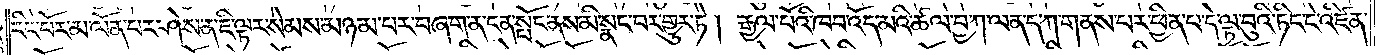རིང་པོར་མ་ལོན་པར་ཤེས་ནས་ཇི་ལྟར་སེམས་མཉམ་པར་བཞག་ན་ངན་སྤོང་ནས་མི་སྣང་བར་གྱུར་ཏེ། རྒྱལ་པོའི་ཁབ་འོད་མའི་ཚལ་བྱ་ཀ་ལན་ད་ཀ་གནས་པར་ཕྱིན་པ་དེ་ལྟ་བུའི་ཏིང་ངེ་འཛིན་
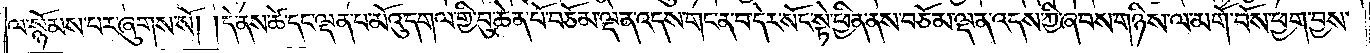ལ་སྙོམས་པར་ཞུགས་སོ། །དེ་ནས་ཚེ་དང་ལྡན་པ་མོའུ་དགལ་གྱི་བུ་ཆེན་པོ་བཅོམ་ལྡན་འདས་གང་ན་བ་དེར་སོང་སྟེ་ཕྱིན་ནས་བཅོམ་ལྡན་འདས་ཀྱི་ཞབས་གཉིས་ལ་མགོ་བོས་ཕྱག་བྱས་
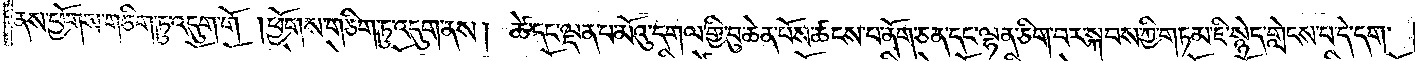ནས་ཕྱོགས་གཅིག་ཏུ་འདུག་གོ །ཕྱོགས་གཅིག་ཏུ་འདུག་ནས། ཚེ་དང་ལྡན་པ་མོའུ་དགལ་གྱི་བུ་ཆེན་པོས་ཚངས་པ་ནོག་ཅན་དང་ལྷན་ཅིག་བར་སྐབས་ཀྱི་གཏམ་ཇི་སྙེད་གླེངས་པ་དེ་དག་
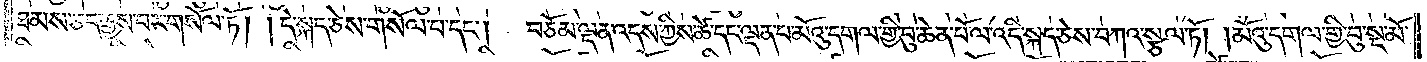ཐམས་ཅད་རྒྱས་བར་གསོལ་ཏོ། །དེ་སྐད་ཅེས་གསོལ་པ་དང༌།  བཅོམ་ལྡན་འདས་ཀྱིས་ཚེ་དང་ལྡན་པ་མོའུ་དགལ་གྱི་བུ་ཆེན་པོ་ལ་འདི་སྐད་ཅེས་བཀའ་སྩལ་ཏོ། །མོའུ་དགལ་གྱི་བུ་སྔ་མོ་
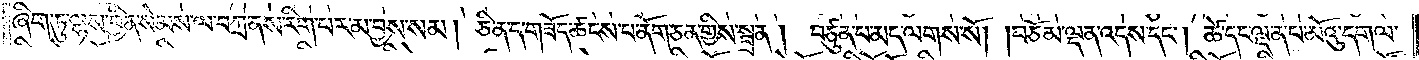ཞིག་ཏུ་ལྷས་བྱིན་སེམས་ལ་བཀྲ་ནས་རིག་པར་མ་བྱས་སམ། ཅི་ན་ད་གཟོད་ཚངས་པ་ནོག་ཅན་གྱིས་སྦྲན། བཙུན་པ་མད་ལགས་སོ། །བཅོམ་ལྡན་འདས་དང༌། ཚེ་དང་ལྡན་པ་མོའུ་དགལ་
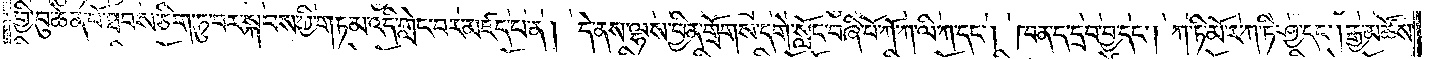གྱི་བུ་ཆེན་པོ་ཐབས་ཅིག་ཏུ་བར་སྐབས་ཀྱི་གཏམ་འདི་གླེང་བར་མཛད་པ་ན། དེ་ནས་ལྷས་བྱིན་གྲོགས་དགེ་སློང་བཞི་པོ་ཀོ་ཀ་ལི་ཀ་དང༌། ཁན་ད་དྲབ་བྱ་དང༌། ཀ་ཏི་མོ་ར་ཀ་ཏི་ཤྱ་དང༌། རྒྱ་མཚོས་
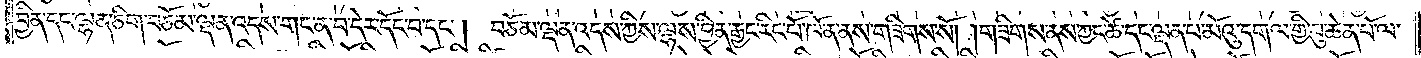བྱིན་དང་ལྷན་ཅིག་བཅོམ་ལྡན་འདས་གང་ན་བ་དེར་དོང་བ་དང༌། བཅོམ་ལྡན་འདས་ཀྱིས་ལྷས་བྱིན་རྒྱང་རིང་པོ་ཁོ་ན་ནས་གཟིགས་སོ། །གཟིགས་ནས་ཀྱང་ཚེ་དང་ལྡན་པ་མོའུ་དགལ་གྱི་བུ་ཆེན་པོ་ལ་
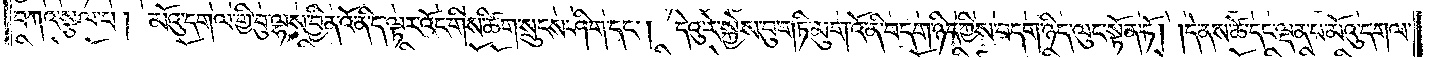བཀའ་སྩལ་པ། མོའུ་དགལ་གྱི་བུ་ལྷས་བྱིན་འོ་ནི་ད་ལྟར་འོང་གིས་ཚིག་སྲུངས་ཤིག་དང༌། དེའུ་རེ་སྐྱེས་བུ་གཏི་མུག་འོ་ནི་བདག་ཉིད་ཀྱིས་བདག་ཉིད་ལུང་སྟོན་ཏོ། །དེ་ནས་ཚེ་དང་ལྡན་པ་མོའུ་དགལ་
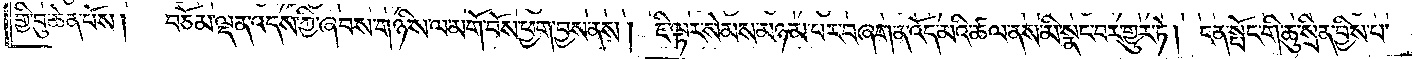གྱི་བུ་ཆེན་པོས།  བཅོམ་ལྡན་འདས་ཀྱི་ཞབས་གཉིས་ལ་མགོ་བོས་ཕྱག་བྱས་ནས། ཇི་ལྟར་སེམས་མཉམ་པར་བཞག་ན་འོད་མའི་ཚལ་ནས་མི་སྣང་བར་གྱུར་ཏེ། ངན་སྤོང་གི་ཆུ་སྲིན་བྱིས་པ་
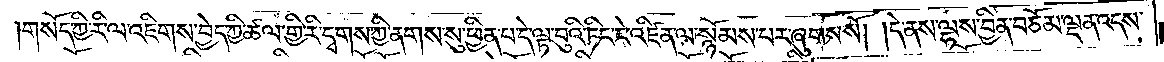གསོད་ཀྱི་རི་ལ་འཇིགས་བྱེད་ཀྱི་ཚལ་གྱི་རི་དྭགས་ཀྱི་ནགས་སུ་ཕྱིན་པ་དེ་ལྟ་བུའི་ཏིང་ངེ་འཛིན་ལ་སྙོམས་པར་ཞུགས་སོ། །དེ་ནས་ལྷས་བྱིན་བཅོམ་ལྡན་འདས་
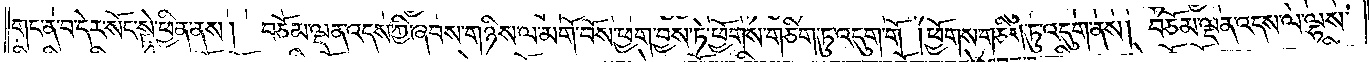གང་ན་བ་དེར་སོང་སྟེ་ཕྱིན་ནས། བཅོམ་ལྡན་འདས་ཀྱི་ཞབས་གཉིས་ལ་མགོ་བོས་ཕྱག་བྱས་ཏེ་ཕྱོགས་གཅིག་ཏུ་འདུག་གོ །ཕྱོགས་གཅིག་ཏུ་འདུག་ནས། བཅོམ་ལྡན་འདས་ལ་ལྷས་
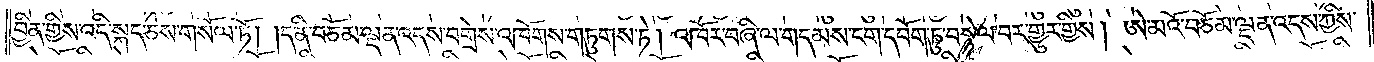བྱིན་གྱིས་འདི་སྐད་ཅེས་གསོལ་ཏོ། །ད་ནི་བཅོམ་ལྡན་འདས་བགྲེས་འཁོགས་གཏུགས་ཏེ། འཁོར་བཞི་ལ་གདམས་ངག་དབོག་ཏུ་བསྙེལ་བར་གྱུར་གྱིས། ཨེ་མའོ་བཅོམ་ལྡན་འདས་ཀྱིས་
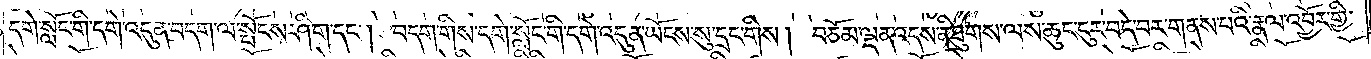དགེ་སློང་གི་དགེ་འདུན་བདག་ལ་སྤོངས་ཤིག་དང༌། བདག་གིས་དགེ་སློང་གི་དགེ་འདུན་ཡོངས་སུ་དྲང་གིས། བཅོམ་ལྡན་འདས་ནི་ཐུགས་ལས་ཆུང་ངུར་བདེ་བར་གནས་པའི་རྣལ་འབྱོར་གྱི་
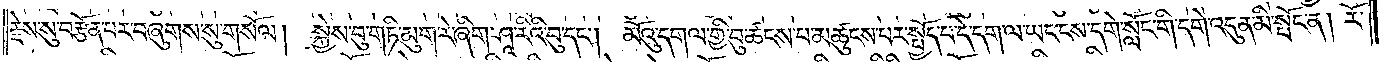རྗེས་སུ་བརྩོན་པར་བཞུགས་སུ་གསོལ། སྐྱེས་བུ་གཏི་མུག་རེ་ཞིག་ཤཱ་རིའི་བུ་དང༌། མོའུ་དགལ་གྱི་བུ་ཚངས་པ་མཚུངས་པར་སྤྱོད་པ་དེ་དག་ལ་ཡང་ངས་དགེ་སློང་གི་དགེ་འདུན་མི་སྤོང་ན། རོ་
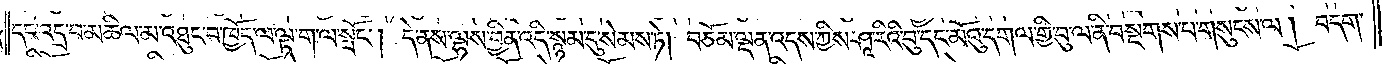དང་འདྲ་བ་མཆིལ་མ་འཐུང་བ་ཁྱོད་ལ་ལྟ་ག་ལ་སྤོང༌། དེ་ནས་ལྷས་བྱིན་འདི་སྙམ་དུ་སེམས་ཏེ། བཅོམ་ལྡན་འདས་ཀྱིས་ཤཱ་རིའི་བུ་དང་མོའུ་དགལ་གྱི་བུ་ལ་ནི་བསྔགས་པ་གསུངས་ལ། བདག་
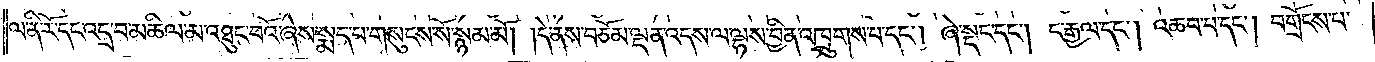ལ་ནི་རོ་དང་འདྲ་བ་མཆིལ་མ་འཐུང་བའོ་ཞེས་སྨད་པ་གསུངས་སོ་སྙམ་མོ། །དེ་ནས་བཅོམ་ལྡན་འདས་ལ་ལྷས་བྱིན་འཁྲུགས་པ་དང༌། ཞེ་སྡང་དང༌། ང་རྒྱལ་དང༌། འཆབ་པ་དང༌། བགྲོངས་པ་
